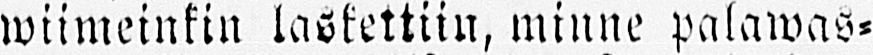wiimeinkin laskettiin, minne palawas-
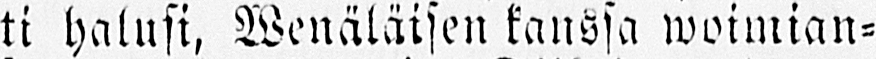ta halusi, wenäläisen kanssa woimian
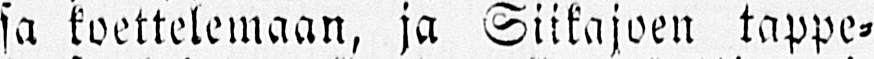sa koettelemaan, ja Siikajoen tappe-
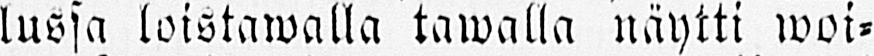lussa loistawalla tawalla näytti woi-
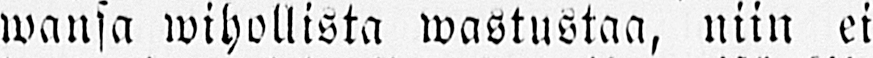wansa wihollista wastustaa, niin ei
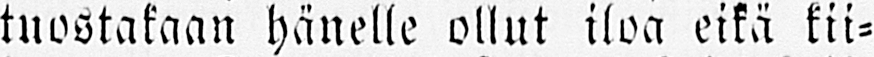tuostakaan hänelle ollut iloa eikä kii-
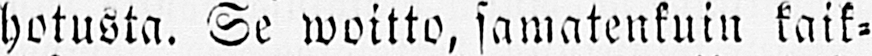hotusta. Se woitto, samatenkuiu kaik-
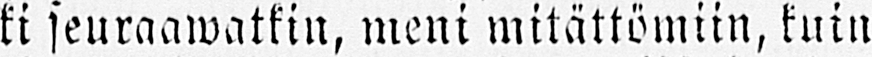ki seuraawatkin, meni mitättömiin, kuin
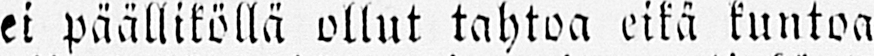ei päälliköllä ollut tahtoa eikä kuntoa
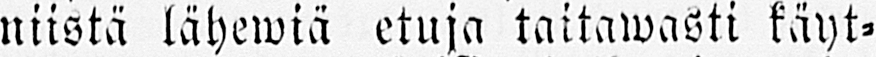niistä lähewiä etuja taitawasti käyt-
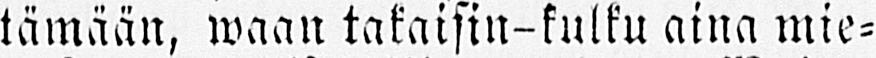tämään, waan takaisin-kulku aina mie-
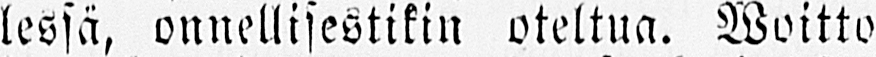lessä, onnellisestikin oteltua. Woitto
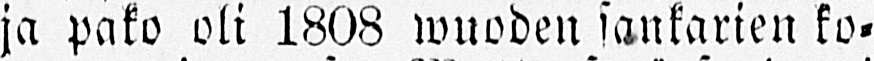ja pako oli 1808 wuoden sankarien ko-
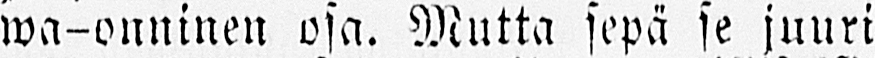wa-onninen osa. Mutta sepä se juuri
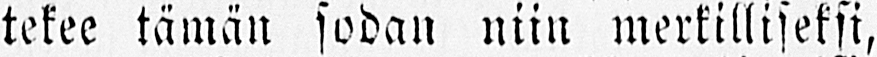tekee tämän sodan niin merkilliseksi,
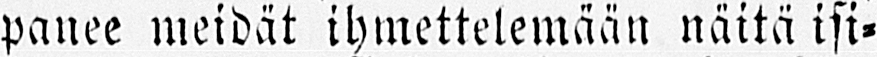panee meidät ihmettelemään näitä isi-
